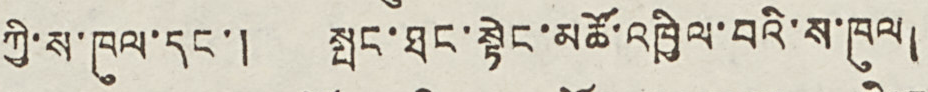ཀྱི་ས་ཁུལ་དང་། སྤང་ཐང་སྟེང་མཚོ་འཁྱིལ་བའི་ས་ཁུལ།
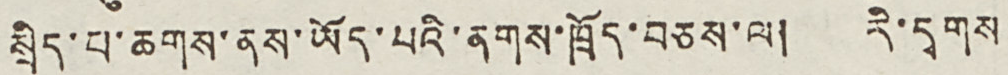སྲིད་པ་ཆགས་ནས་ཡོད་པའི་ནགས་ཁྲོད་བཅས་ལ། རི་དྭགས
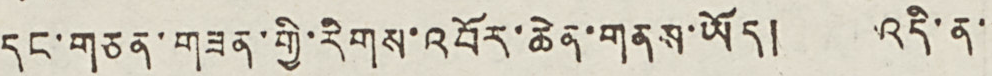དང་གཅན་གཟན་གྱི་རིགས་འབོར་ཆེན་གནས་ཡོད། འདི་ན་
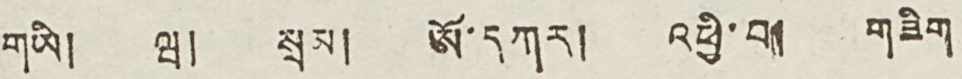གཡི། ཝ། སྲམ། ཨོ་དཀར། འཕྱི་བ། གཟིག
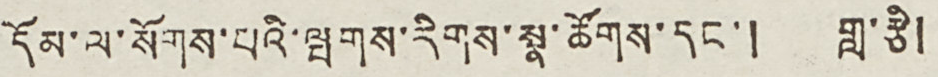དོམ་ལ་སོགས་པའི་ལྤགས་རིགས་སྣ་ཚོགས་དང་། གླ་རྩི།
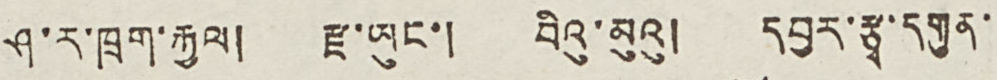ཤ་ར་ཁྲག་རྐྱལ། རྫ་ཡུང་། བིའུ་མུའུ། དབྱར་རྩྭ་དགུན་
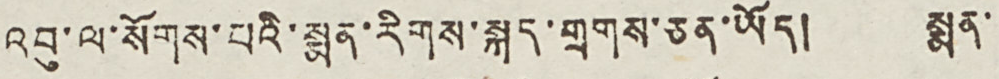འབུ་ལ་སོགས་པའི་སྨན་རིགས་སྐད་གྲགས་ཅན་ཡོད། སྨན་
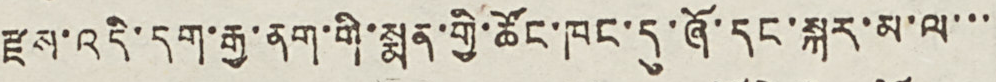རྫས་འདི་དག་རྒྱ་ནག་གི་སྨན་གྱི་ཚོང་ཁང་དུ་ཞོ་དང་སྐར་མ་ལ་་་
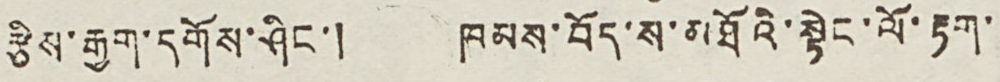རྩིས་རྒྱག་དགོས་ཤིང་། ཁམས་བོད་ས་མཐོའི་སྟེང་ལོ་རྟག་
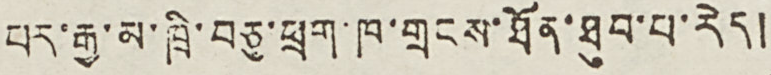པར་རྒྱ་མ་ཁྲི་བཅུ་ཕྲག་ཁ་གྲངས་ཐོན་ཐུབ་པ་རེད།
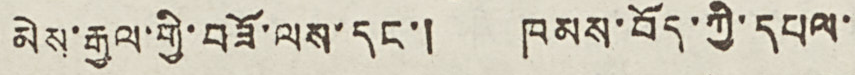མེས་རྒྱལ་གྱི་བཟོ་ལས་དང་། ཁམས་བོད་ཀྱི་དཔལ་
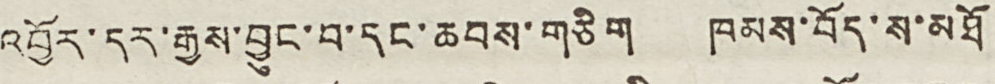འབྱོར་དར་རྒྱས་བྱུང་བ་དང་ཆབས་གཅིག ཁམས་བོད་ས་མཐོ
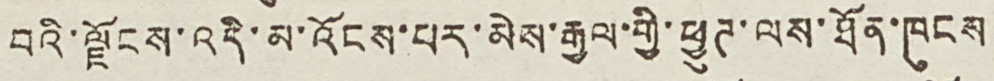བའི་ལྗོངས་འདི་མ་འོངས་པར་མེས་རྒྱལ་གྱི་ཕྱུཊ་ལས་ཐོན་ཁུངས
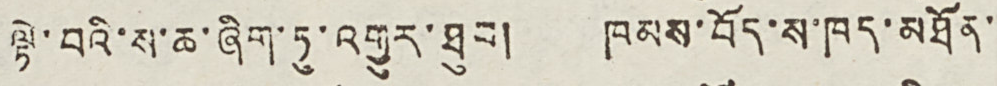ལྟེ་བའི་ས་ཆ་ཞིག་ཏུ་འགྱུར་ཐུབ། ཁམས་བོད་ས་ཁད་མཐོན་
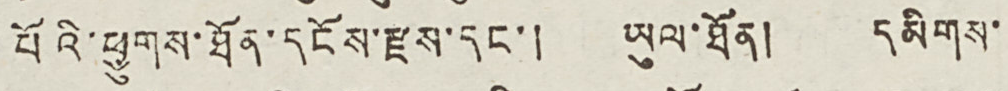པོའི་ཕྱུགས་ཐོན་དངོས་རྫས་དང་། ཡུལ་ཐོན། དམིགས་
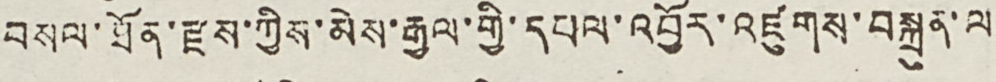བསལ་ཐོན་རྫས་ཀྱིས་མེས་རྒྱལ་གྱི་དཔལ་འབྱོར་འཛུགས་བསྐྲུན་ལ
